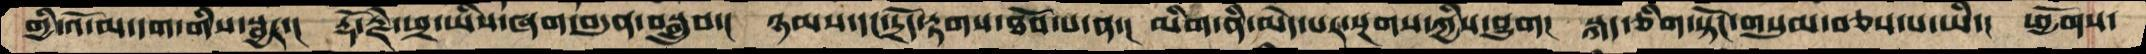གྱི་འོ་མ་དག་གིས་སྦྱར་།  རྡོ་རྗེ་ཕྲ་ཡིས་ཞག་བདུན་བསྒྲུབ་།  ཉམས་དང་དྲོད་རྟགས་ཐོབ་པ་ན་།  མིག་ནི་མེད་པར་སྔགས་ཀྱིས་བྱུག།  སྐད་ཅིག་སྟོང་གསུམ་བཅས་པ་ཡི་།  ཕྱོགས་
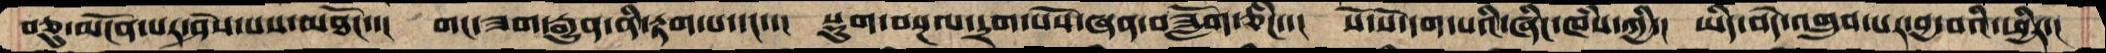བཅུ་མངོན་པར་ཤེས་པས་མཐོང་།  གང་ཟག་རྒྱུན་ནི་རྟག་པ་དང་་།  སྡུག་བསྔལ་དྲག་པོས་ཞན་བཟློག་ཅིང་་།  སོ་སོ་དག་པའི་ཞིང་ཁཾས་ཀྱི་།  ཡིད་བདེ་འགྲུབ་པར་བྱ་བའི་ཕྱིར་།
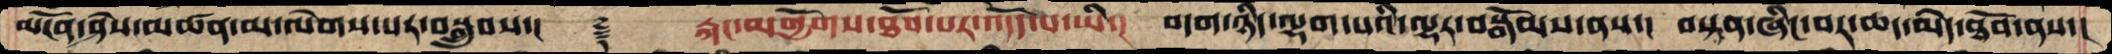མངོན་ཤེས་མཚན་མ་ལེགས་པར་བསྒྲུབས་།  ࿑   རྐང་མགྱོགས་ཐོབ་པར་འདོད་པ་ཡི་།  བདག་ཉིད་ལྷག་པའི་ལྷར་བསྒོམས་ནས་།  བསྟན་ཞིང་བར་ཆད་མེད་ཐོབ་ནས་།
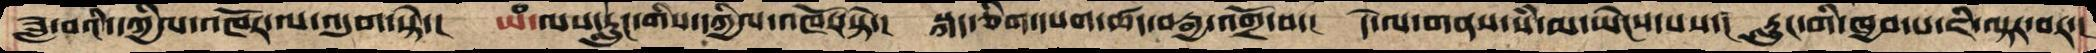ཟླ་བའི་དཀྱིལ་འཁོར་ལ་འདུག་སྟེ་།  ཡཾ་ལས་རླུང་གིས་དཀྱིལ་འཁོར་སྟེ་།  སྐད་ཅིག་དཔག་ཚད་བརྒྱ་འགྲོ་བ་།  དེ་ལ་གནས་སཾ་མ་ཡེངས་པས་།  རླུང་གི་ཁྱབ་པ་ཇི་ལྟར་བར་།
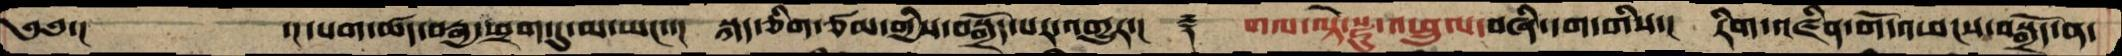༄༅་།     ་།དཔག་ཚད་བརྒྱ་ཕྲག་དུ་མ་ཡང་་།  སྐད་ཅིག་ཙམ་གྱིས་བསྒྲོད་པར་འགྱུར་།  ࿑   གལ་ལྟེ་སྫུ་འཕྲུལ་བཞི་དག་གིས་།  རིག་འཛིན་གོ་འཕངས་བསྒྲོད་ན་
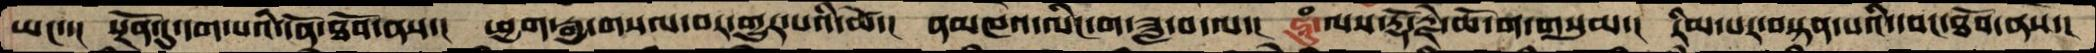ཡང་་།  སྔོན་དུ་དག་པའི་དོན་ཐོབ་ནས་།  ཕྱག་རྒྱ་གསལ་བར་གྱུར་པའི་ཚེ་།  ནམཁའ་ལིང་ག་ཟླ་བ་ལ་།  ཧཱུཾ་ལས་རྡོ་རྗེ་ཆོ་ག་གསུམ་།  རིམ་པར་བསྟན་པའི་དབང་ཐོབ་ནས་།
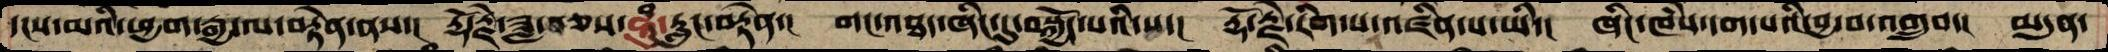དངས་མའི་ཕྱག་རྒྱ་ལ་བརྟེན་ནས་།  རྡོ་རྗེ་ཟླ་བཅས་ཧཱུཾ་རླུང་བརྟེན་།  གང་འཐད་ཞིང་དུ་བསྐྱོད་པའི་ས་།  རྡོ་རྗེ་རིག་པ་འཛིན་པ་ཡི་།  ཞིང་ཁཾས་དག་པའི་བྱ་བ་འགྲུབ་།  མདུན་
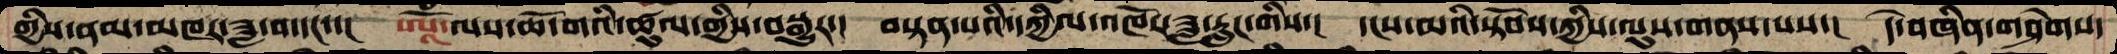གྱིས་ནམ་མཁར་ཟླ་བ་དང་་།  ཨཱོཾ་ལས་ཆོ་གའི་ཚུལ་གྱིས་བསྒྱུར་།  བསྟན་པའི་དཀྱིལ་འཁོར་ཟླ་རླུང་གིས་།   དངས་མའི་སྟོབས་ཀྱིས་ལུས་གནས་པས་།  དེ་བཞིན་གཤེགས་
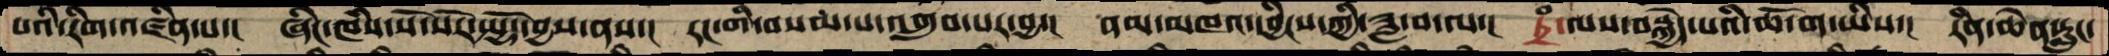པའི་རིག་འཛིན་པ་།  ཞིང་ཁཾས་སོ་སོར་སྤྱོད་བྱས་ནས་།  རང་གི་བསམ་པ་འགྲུབ་པར་བྱ་།  ནམ་མཁའ་དབྱིངས་ཀྱི་ཟླ་བ་ལ་།  ཏྲཾ་ལས་བསྐྱེད་པའི་ཆོ་ག་ཡིས་།  རིན་ཆེན་རླུང་
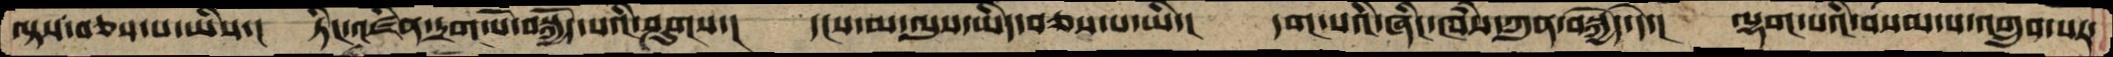ལྟས་བཅས་པ་ཡིས་།  ཏིང་འཛིན་དྲག་པོ་བསྐྱོད་པའི་ཤུགས་།   དངས་མ་ལུས་ཡིད་བཅས་པ་ཡི་།   དག་པའི་ཞིང་ཁཾས་ཀུན་བསྐྱེད་དེ་།  ལྷག་པའི་བསམ་པ་འགྲུབ་པར་
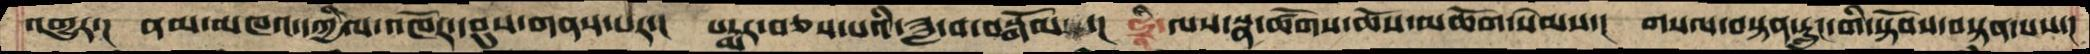འགྱུར་།   ནམ་མཁའ་དཀྱིལ་འཁོར་དབུས་གནས་པར་།  པདྨར་བཅས་པའི་ཟླ་བ་བསྒོམ ་།  ཧྲཱི་ལས་སྣ་ཚོགས་ཆོས་མཆོག་སེམས་།  གསལ་བསྟན་རླུང་གི་སྟོབས་བསྟན་པས་།
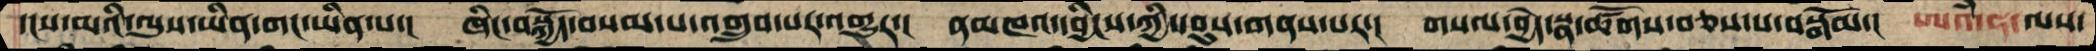དངས་མའི་ལུས་ཡིན་གང་ཡིན་པ་།  ཞིང་བསྐྱོད་བསམ་པ་འགྲུབ་པར་འགྱུར་།  ནམཁའ་དབྱིངས་ཀྱི་དབུས་གནས་པར་།   གསལ་བྱེད་སྣ་ཚོགས་བཅས་པ་བསྒོམ་།  ཨའཾ་ཧ་ལས་
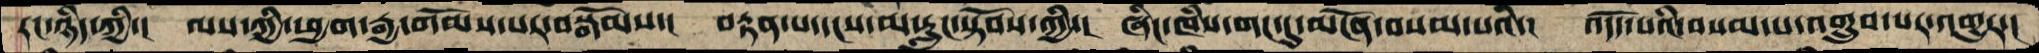རང་ཉིད་ཀྱི་།  ལས་ཀྱི་ཕྱག་རྒྱ་གོམས་པར་བསྒོོམས་།  བརྟན་པ་དངས་མ་རླུང་སྟོབས་ཀྱི་།  ཞིང་ཁཾས་གང་དུ་མངོན་བསམ་པའི་།  འདོད་པའི་བསམ་པ་འགྲུབ་པར་འགྱུར་།
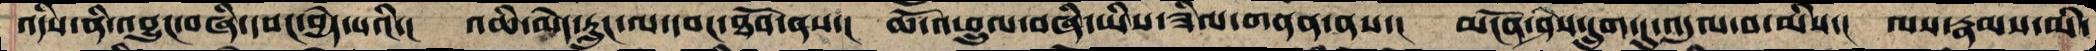འདི་ནི་འབྱུང་བཞི་དབང་བྱེད་པའི་།  འཆི་མེད་རླུང་ལ་དབང་ཐོབ་ནས་།  ཆོ་འཕྲུལ་བཞི་ཡིས་ཟིལ་གནན་ནས་།  མངོན་ཤེས་དྲུག་དུ་འདུལ་བ་ཡིས་།  ལས་རྣམས་མི་
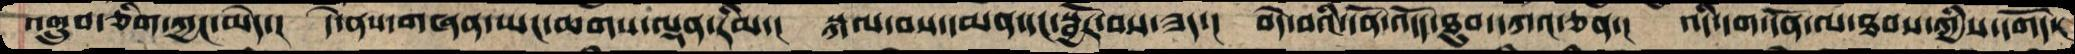འགྲུབ་ཅིག་ཀྱང་མེད་།  དེ་ནས་གཞན་ཡང་ཆགས་ལྡན་རིམ་།  སྐལ་བས་དམན་དང་སྦྱོར་བས་ཟད་།  བདེ་བའི་དོན་འདོད་ཐུབ་དཀའ་ཅན་།  འདི་དག་དོན་ལ་ཐབས་ཀྱིས་དགོད་།
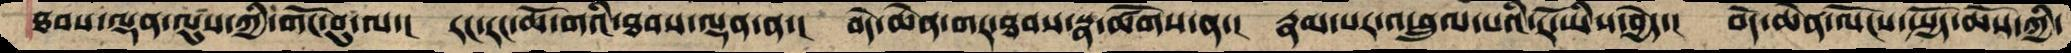ཐབས་ལྡན་ལུས་ཀྱི་གོང་བུ་ལ་།  རང་རང་ཆོ་གའི་ཐབས་ལྡན་ན་།  བདེ་ཆེན་གར་ཐབས་སྣ་ཚོགས་ན་།   རྣམ་པར་འཕྲུལ་པའི་རོ་ཡིས་བྱེད་།  བདེ་ཆེན་ལོངས་སྤྱོད་ཆོས་ཀྱི་
